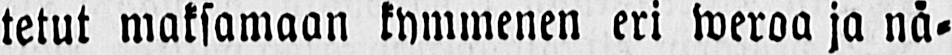tetut maksamaan kymmenen eri weroa ja nä-
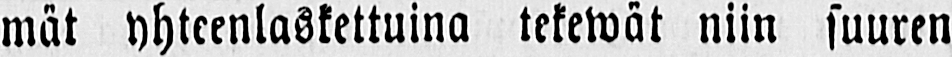mät yhteenlaskettuina tekewät niin suuren
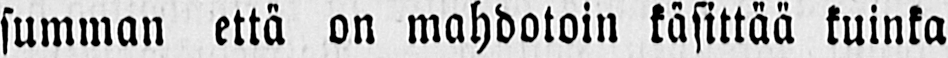summan että on mahdotoin käsittää kuinka
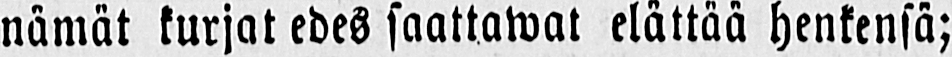nämät kurjat edes saattawat elättää henkensä;
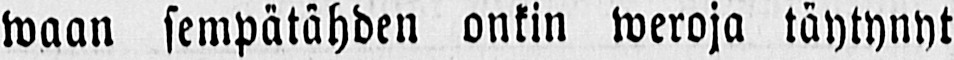waan sempätähden onkin weroja täytynyt
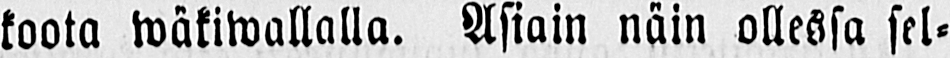koota wäkiwallalla. Asiain näin ollessa sel-
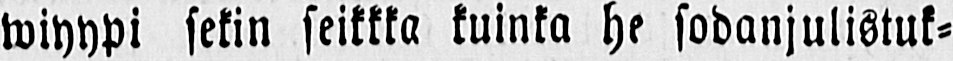wiyypi sekin seikkka kuinka he sodanjulistuk-
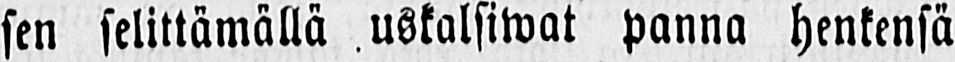sen selittämällä uskalsiwat panna henkensä
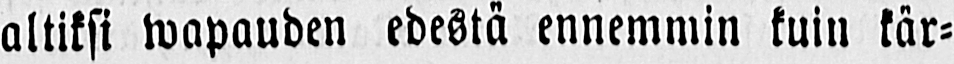alliksi wapauden edestä ennemmin kuin kär-
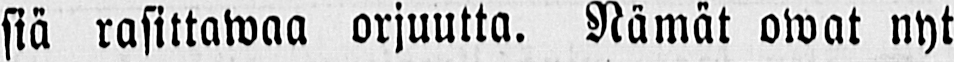siä rasittawaa orjuutta. Nämät owat nyt
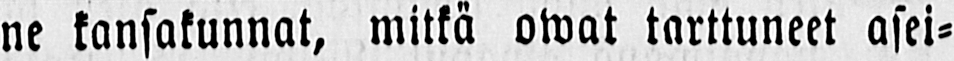ne kansakunnat, mitkä owat tarttuneet asei-
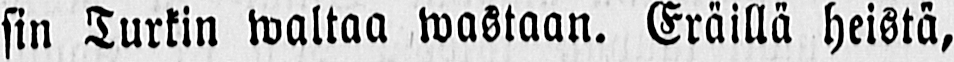siin Turkin waltaa wastaan. Eräillä heistä,
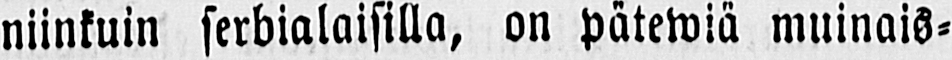niinkuin serbialaisilla, on pätewiä muinais-
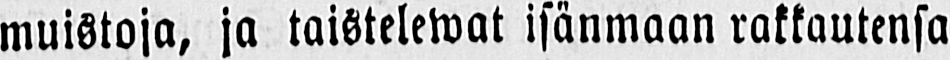muistoja, ja taistelewat isänmaan rakkautensa
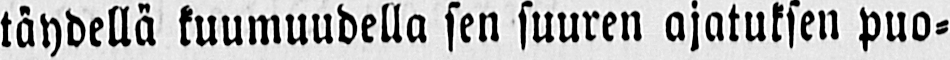täydellä kuumuudella sen suuren ajatuksen puo-
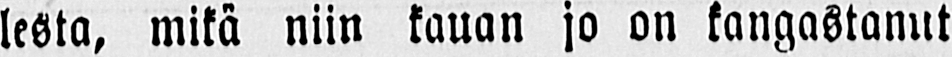lesta, mikä niin kauan jo on kangastanut
